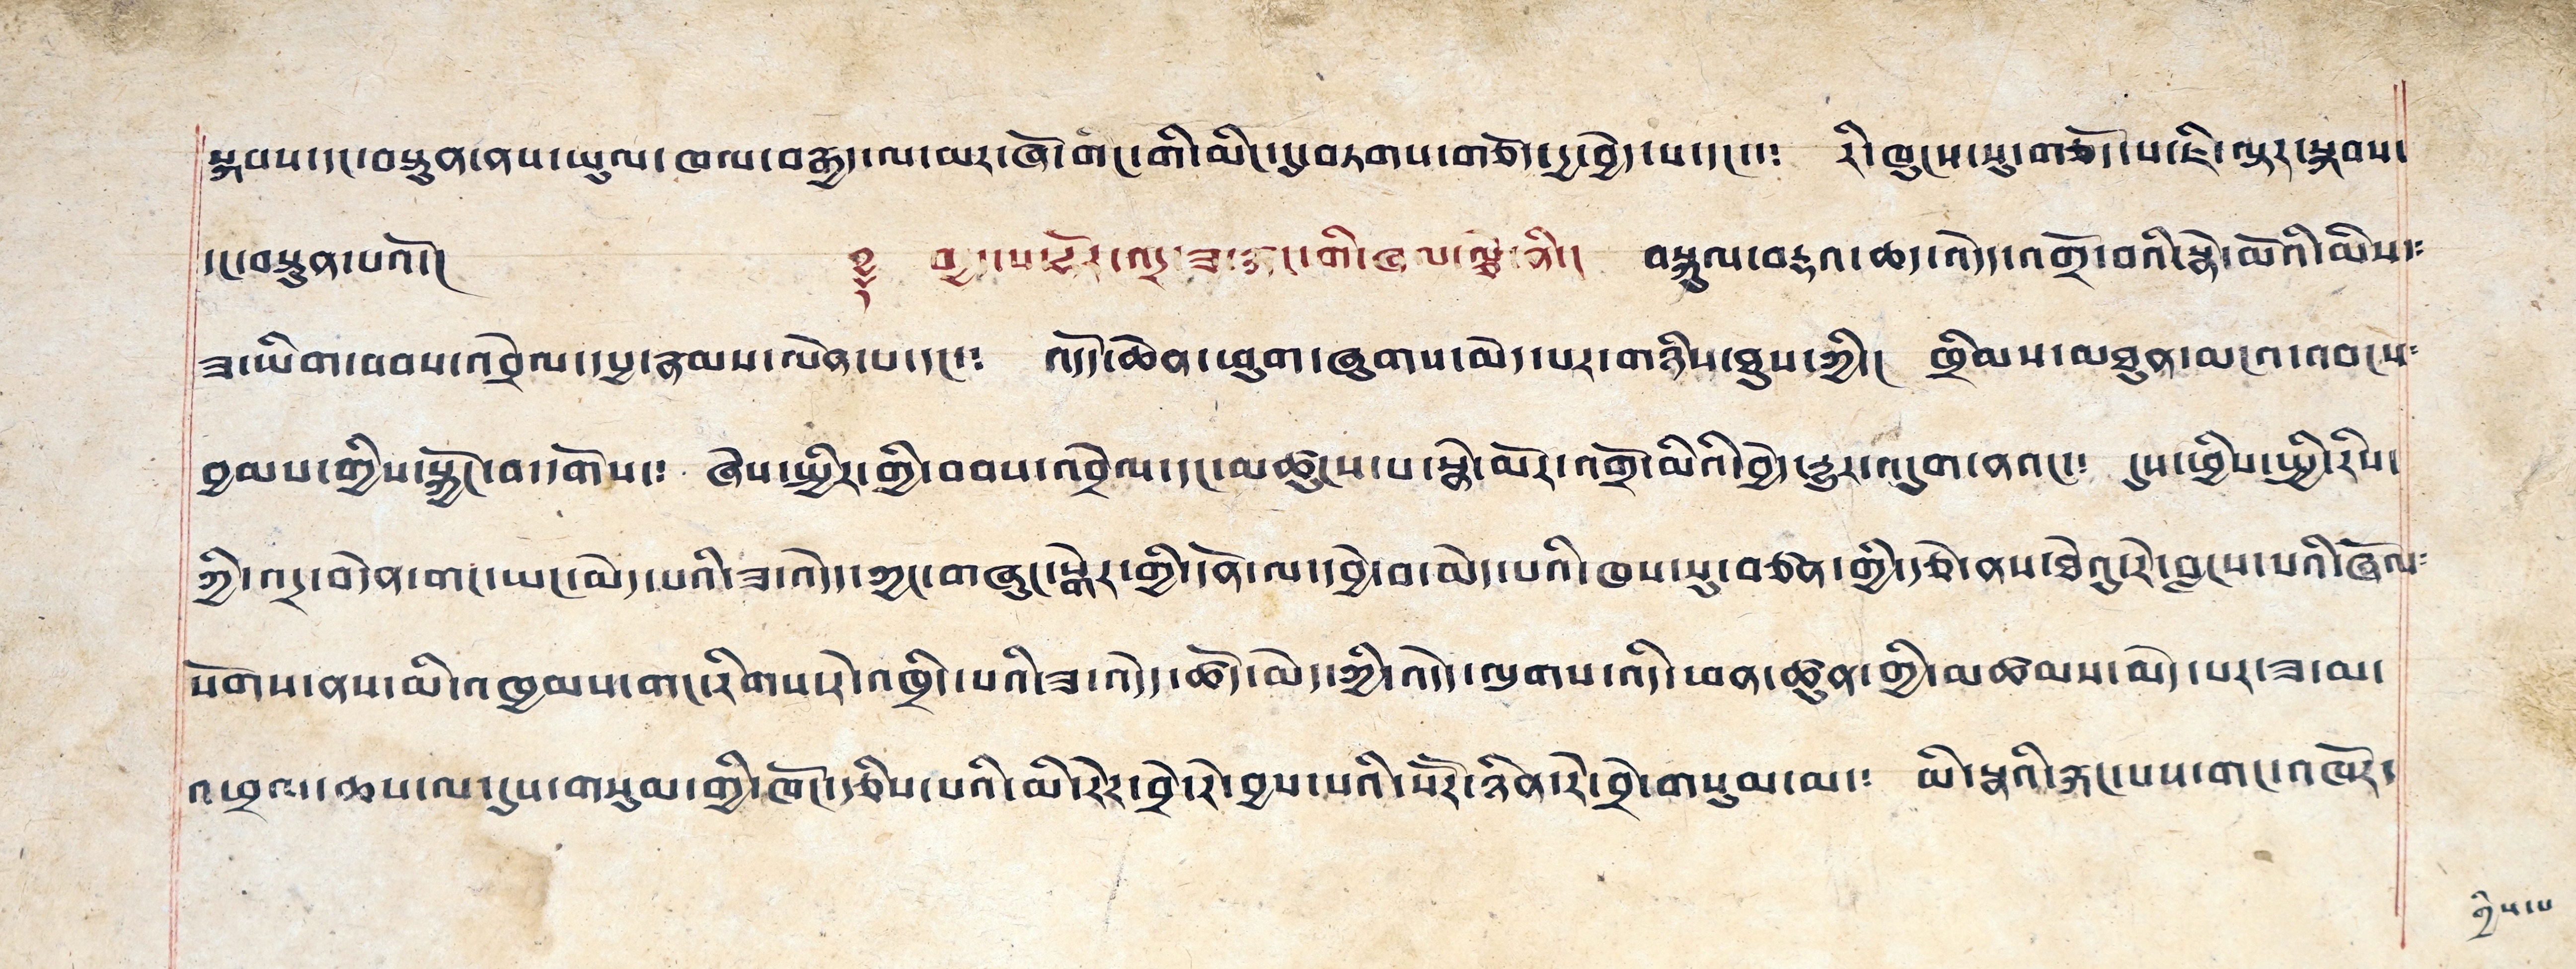སྐབས་དང་བསྟུན་ནས་ཡུལ་ཁལ་བརྒྱད་ལ་མར་ཞོ་གང་གི་མིང་དུ་བཏགས་གཅོད་དྱ་བྱེད་པ་དང་༴ རི་ཁུངས་སུ་གཅོད་པ་ཇི་ལྟར་སྐབས་
དང་བསྟུན་པའོ་། ༈ བདྱད་པ་ཧོར་འདྲ་ཟ་རྐང་གི་ཞལ་ལྕེ་ནི་། བསྐུལ་བརྡའ་ཆད་འདོད་འགྲོ་བའི་སྣེ་མོའི་མིས་༴
ཟ་ཡིག་བབས་འབྲེལ་དཔྱ་རྣམས་ལེན་པ་དང་༴ འདོད་ཆེན་ཕུག་ཞུགས་མེད་པར་གཉིས་ཐུས་ཀྱི་། ཁྲིམས་མཐུན་མངའ་འབངས༴
བྱམས་གྱིས་སྐྱོང་བ་དགོས་༴ ཞེས་སྤྱིར་གྱི་བབས་འབྲེལ་དང་མཚུངས་པ་སྣེ་མོར་འགྲོ་མིའི་བྱེད་རྒྱུར་འདུག་ནའང་༴ དུས་ཕྱིས་སྤྱི་རིས་
ཀྱི་འདྲ་བདེན་གང་ཡང་མེད་པའི་ཟ་འདོད་ཀྱང་གཞུང་སྒེར་གྱི་དོན་ལ་དབྱེ་བ་མེད་པའི་ཁས་སུ་བཙན་གྱི་རྩེ་ནས་ཐེའུ་རེ་བླངས་པའི་ཞོལ༴
སོགས་ནས་མི་འཁྱམས་གང་རིགས་རེ་འཁྲིད་པའི་ཟ་འདོད་ཚོད་མེད་ཀྱི་འདོད་ལུགས་འདི་ཕན་ཚུན་གྱི་མཚམས་མེད་པར་ཟ་མ་
འཕྲལ་ཆས་ལ་དུས་གསུམ་གྱི་ཁོང་རྩིས་པའི་མི་རེར་བྲེ་རེ་བྱས་པའི་སོ་སོར་ཉིན་རེ་བྲེ་གསུམ་མ་༴ མི་སྣའི་རྐང་པས་གང་འཁོར་
